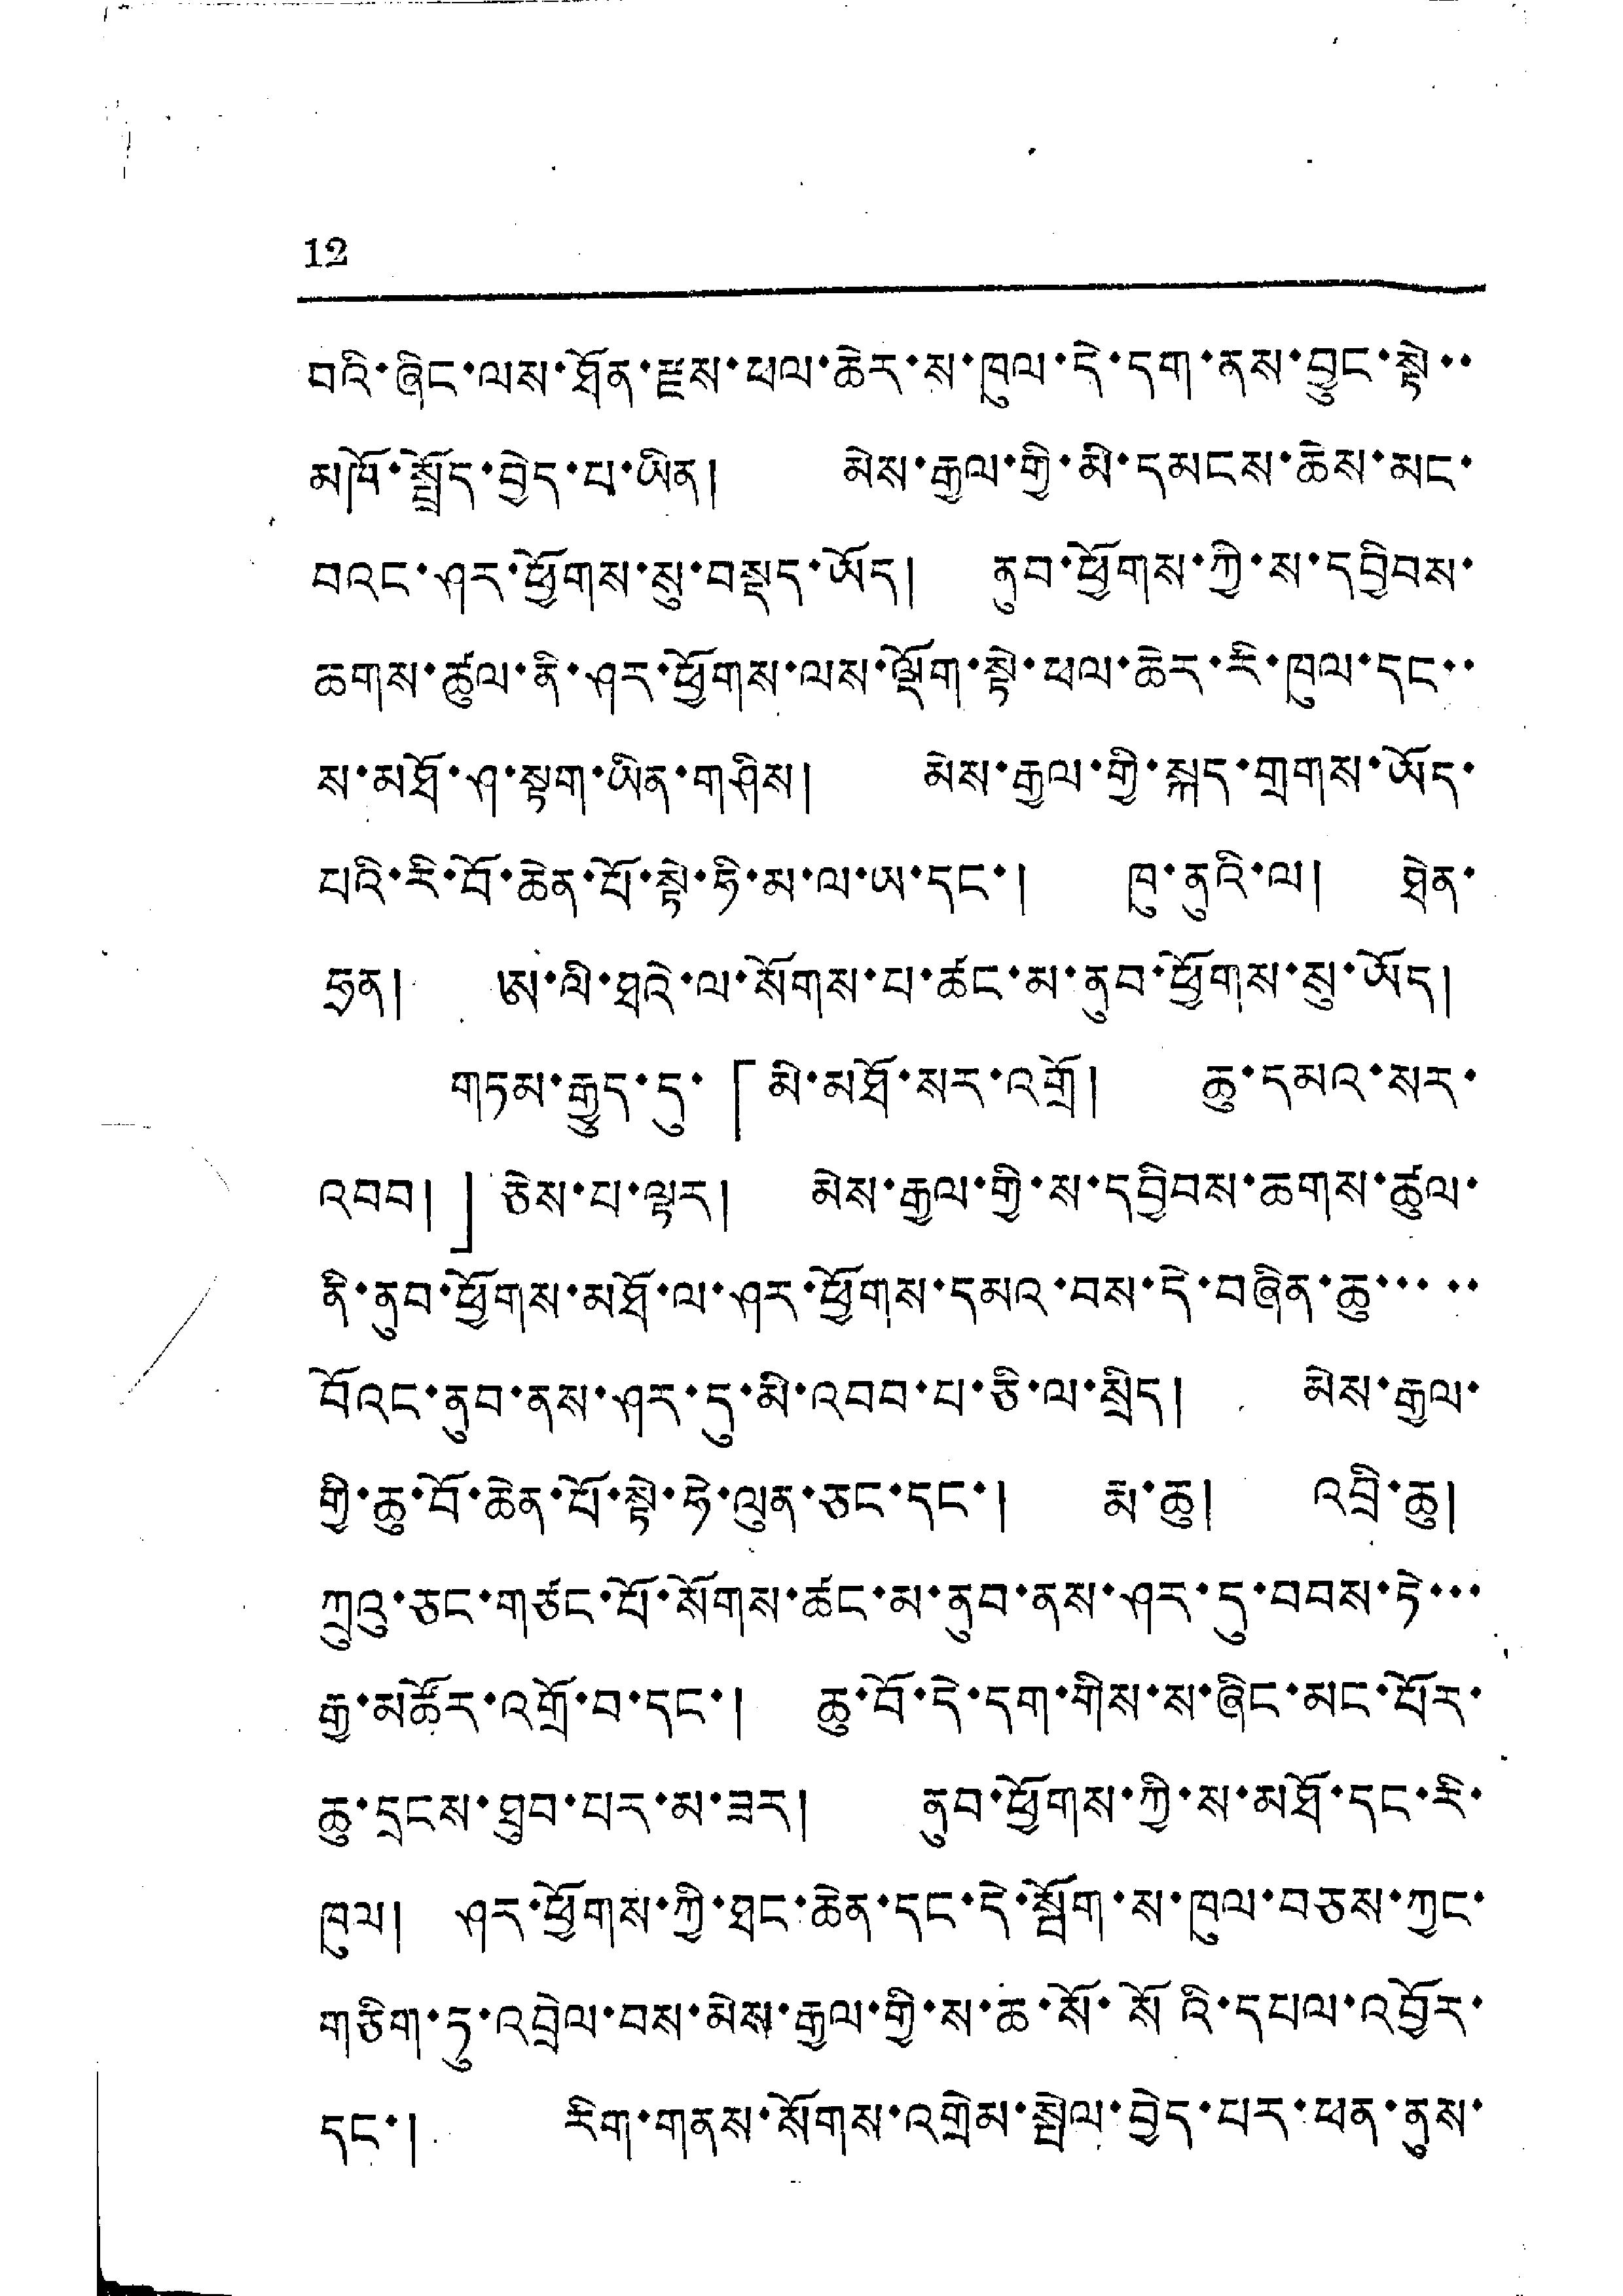12
བའི་ཞིང་ལས་ཐོན་རྫས་ཕལ་ཆེར་ས་ཁུལ་དེ་དག་ནས་བྱུང་སྟེ་་
མཁོ་སྤྲོད་བྱེད་པ་ཡིན། མེས་རྒྱལ་གྱི་མི་དམངས་ཆེས་མང་
བའང་ཤར་ཕྱོགས་སུ་བསྡད་ཡོད། ནུབ་ཕྱོགས་ཀྱི་ས་དབྱིབས་
ཆགས་ཚུལ་ནི་ཤར་ཕྱོགས་ལས་ལྡོག་སྟེ་ཕལ་ཆེར་རི་ཁུལ་དང་་
ས་མཐོ་ཤ་སྟག་ཡིན་གཤིས། མེས་རྒྱལ་གྱི་སྐད་གྲགས་ཡོད་
པའི་རི་བོ་ཆེན་པོ་སྟེ་ཧི་མ་ལ་ཡ་དང་། ཁུ་ནུའི་ལ། ཐེན་
ཧྲན། ཨ་ལི་ཐའེ་ལ་སོགས་པ་ཚང་མ་ནུབ་ཕྱོགས་སུ་ཡོད།
གཏམ་རྒྱུད་དུ་「མི་མཐོ་སར་འགྲོ། ཆུ་དམའ་སར་
འབབ།」ཅེས་པ་ལྟར། མེས་རྒྱལ་གྱི་ས་དབྱིབས་ཆགས་ཚུལ་
ནི་ནུབ་ཕྱོགས་མཐོ་ལ་ཤར་ཕྱོགས་དམའ་བས་དེ་བཞིན་ཆུ་་་་་
བོའང་ནུབ་ནས་ཤར་དུ་མི་འབབ་པ་ཅི་ལ་སྲིད། མེས་རྒྱལ་
གྱི་ཆུ་བོ་ཆེན་པོ་སྟེ་ཧེ་ལུན་ཅང་དང་། རྨ་ཆུ། འབྲི་ཆུ།
ཀྲུའུ་ཅང་གཅང་པོ་སོགས་ཚང་མ་ནུབ་ནས་ཤར་དུ་བབས་ཏེ་་་
རྒྱ་མཚོར་འགྲོ་བ་དང་། ཆུ་བོ་དེ་དག་གིས་ས་ཞིང་མང་པོར་
ཆུ་དྲངས་ཐུབ་པར་མ་ཟར། ནུབ་ཕྱོགས་ཀྱི་ས་མཐོ་དང་རི་
ཁུལ། ཤར་ཕྱོགས་ཀྱི་ཐང་ཆེན་དང་དེ་སྦོག་ས་ཁུལ་བཅས་ཀྱང་
གཅིག་ཏུ་འབྲེལ་བས་མེས་རྒྱལ་གྱི་ས་ཆ་སོ་སོའི་དཔལ་འབྱོར་
དང་། རིག་གནས་སོགས་འགྲེམ་སྤེལ་བྱེད་པར་ཕན་ནུས་
